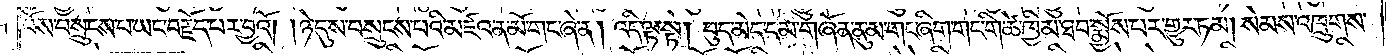པོས་བསྲུངས་པ་ཡང་བརྗོད་པར་བྱའོ། །ཉེ་དུས་བསྲུངས་པའི་མཛའ་ན་མོ་གང་ཞེ་ན། འདི་ལྟ་སྟེ། བུད་མེད་དམ་གཞོན་ནུ་མ་གང་ཞིག་གང་གི་ཚེ་ཁྱིམ་ཐབ་སྨྱོས་པར་གྱུར་ཏམ། སེམས་འཁྲུགས་
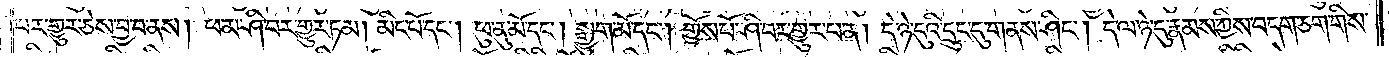པར་གྱུར་ཅེས་བྱ་བ་ནས། ཕ་མ་ཤི་བར་གྱུར་ཏམ། མིང་པོ་དང༌། ཕུ་ནུ་མོ་དང༌། སྒྱུག་མོ་དང༌། གྱོས་པོ་ཤི་བར་གྱུར་པ་ན། དེ་ཉེ་དུའི་དྲུང་དུ་གནས་ཤིང༌། དེ་ལ་ཉེ་དུ་རྣམས་ཀྱིས་བདག་ཅག་གིས་
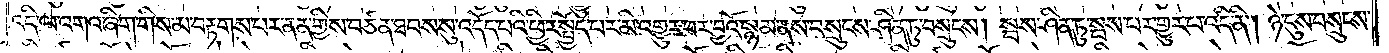འདི་ལ་འགའ་ཞིག་གིས་མ་བརྟགས་པར་ནན་གྱིས་བཙན་ཐབས་སུ་འདོད་པའི་ཕྱིར་སྤྱོད་པར་མི་འགྱུར་བར་བྱའོ་སྙམ་ནས་བསྲུངས་ཤིན་ཏུ་བསྲུངས། སྦས་ཤིན་ཏུ་སྦས་པར་གྱུར་པ་འདི་ནི། ཉེ་དུས་བསྲུངས་
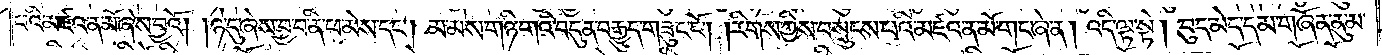པའི་མཛའ་ན་མོ་ཞེས་བྱའོ། །ཉེ་དུ་ཞེས་བྱ་བ་ནི་ཕ་མེས་དང༌། མ་མེས་གཉི་གའི་བདུན་བརྒྱུད་གཟུང་ངོ༌། །རིགས་ཀྱིས་བསྲུངས་པའི་མཛའ་ན་མོ་གང་ཞེ་ན། འདི་ལྟ་སྟེ། བུད་མེད་དམ་གཞོན་ནུ་མ་
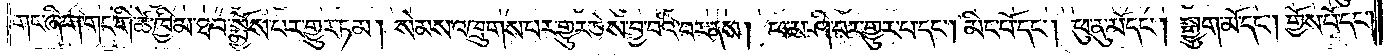གང་ཞིག་གང་གི་ཚེ་ཁྱིམ་ཐབ་སྨྱོས་པར་གྱུར་ཏམ། སེམས་འཁྲུགས་པར་གྱུར་ཅེས་བྱ་བའི་བར་ནས། ཕ་མ་ཤི་བར་གྱུར་པ་དང༌། མིང་པོ་དང༌། ཕུ་ནུ་མོ་དང༌། སྒྱུག་མོ་དང༌། གྱོས་པོ་དང༌།
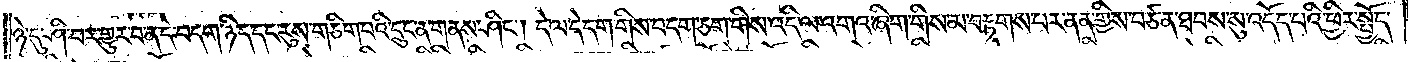ཉེ་དུ་ཤི་བར་གྱུར་བ་ན་དེ་བདག་ཉིད་དང་རུས་གཅིག་པའི་དྲུང་ན་གནས་ཤིང༌། དེ་ལ་དེ་དག་གིས་བདག་ཅག་གིས་འདི་ལ་འགའ་ཞིག་གིས་མ་བརྟགས་པར་ནན་གྱིས་བཙན་ཐབས་སུ་འདོད་པའི་ཕྱིར་སྤྱོད་
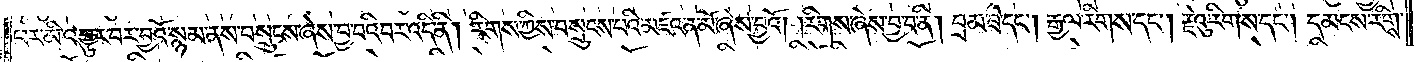པར་མི་འགྱུར་བར་བྱའོ་སྙམ་ནས་བསྲུངས་ཞེས་བྱ་བའི་བར་འདི་ནི། རིགས་ཀྱིས་བསྲུངས་པའི་མཛའ་ན་མོ་ཞེས་བྱའོ། །རིགས་ཞེས་བྱ་བ་ནི། བྲམ་ཟེ་དང༌། རྒྱལ་རིགས་དང༌། རྗེའུ་རིགས་དང༌། དམངས་རིགས་
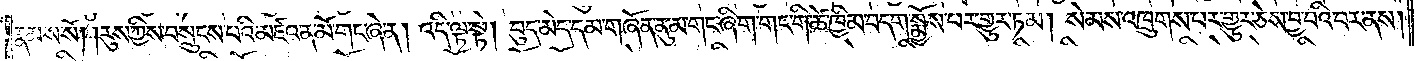རྣམས་སོ། །རུས་ཀྱིས་བསྲུངས་པའི་མཛའ་ན་མོ་གང་ཞེ་ན། འདི་ལྟ་སྟེ། བུད་མེད་དམ་གཞོན་ནུ་མ་གང་ཞིག་གང་གི་ཚེ་ཁྱིམ་བདག་སྨྱོས་པར་གྱུར་ཏམ། སེམས་འཁྲུགས་པར་གྱུར་ཅེས་བྱ་བའི་བར་ནས།
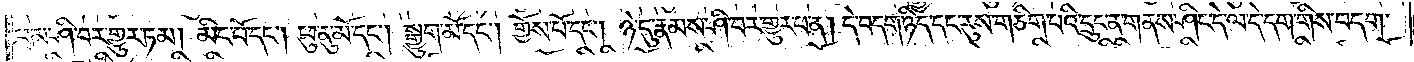ཕ་མ་ཤི་བར་གྱུར་ཏམ། མིང་པོ་དང༌། ཕུ་ནུ་མོ་དང༌། སྒྱུག་མོ་དང༌། གྱོས་པོ་དང༌། ཉེ་དུ་རྣམས་ཤི་བར་གྱུར་པ་ན། དེ་བདག་ཉིད་དང་རུས་གཅིག་པའི་དྲུང་ན་གནས་ཤིང་དེ་ལ་དེ་དག་གིས་བདག་
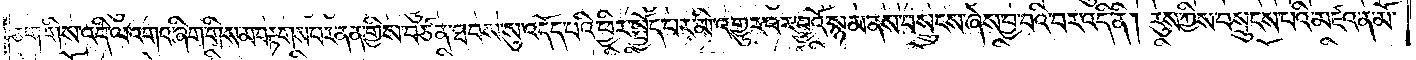ཅག་གིས་འདི་ལ་འགའ་ཞིག་གིས་མ་བརྟགས་པར་ནན་གྱིས་བཙན་ཐབས་སུ་འདོད་པའི་ཕྱིར་སྤྱོད་པར་མི་འགྱུར་བར་བྱའོ་སྙམ་ནས་བསྲུངས་ཞེས་བྱ་བའི་བར་འདི་ནི། རུས་ཀྱིས་བསྲུངས་པའི་མཛའ་ན་མོ་
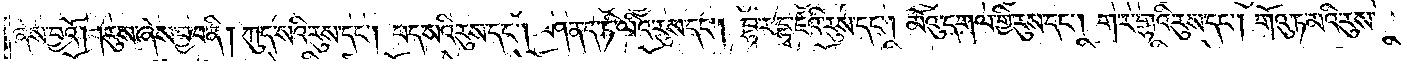ཞེས་བྱའོ། །རུས་ཞེས་བྱ་བ་ནི། ཀུད་སའི་རུས་དང༌། པད་སའི་རུས་དང༌། ཤན་ད་ཏི་ལའི་རུས་དང༌། བྷ་ར་དྷྭ་ཛའི་རུས་དང༌། མོའུ་དགལ་གྱི་རུས་དང༌། ག་ར་གྷའི་རུས་དང༌། གོའུ་ཏ་མའི་རུས་
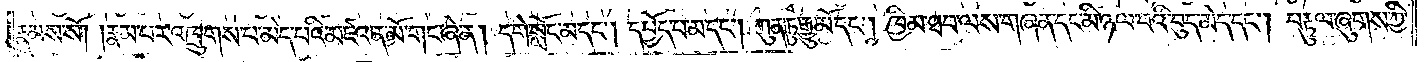རྣམས་སོ། །རྣམ་པར་འཁྲུགས་པ་མེད་པའི་མཛའ་ན་མོ་གང་ཞེ་ན། དགེ་སློང་མ་དང༌། དཔྱོད་པ་མ་དང༌། ཀུན་ཏུ་རྒྱུ་མོ་དང༌། ཁྱིམ་ཐབ་ལས་གཞན་དང་མི་ཉལ་བའི་བུད་མེད་དང༌། བརྟུལ་ཞུགས་ཀྱི་
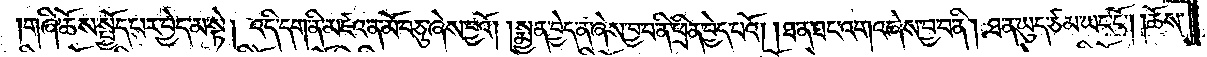གཞི་ཆོས་སྤྱོད་པར་བྱེད་མ་སྟེ། འདི་དག་ནི་མཛའ་ན་མོ་བཅུ་ཞེས་བྱའོ། །སྨྱན་བྱེད་ན་ཞེས་བྱ་བ་ནི་ཕྲིན་བྱེད་པའོ། །ཐ་ན་ཐང་འགའ་ཞེས་བྱ་བ་ནི། ཐ་ན་ཡུད་ཙམ་ཡང་ངོ༌། །ཆོས་
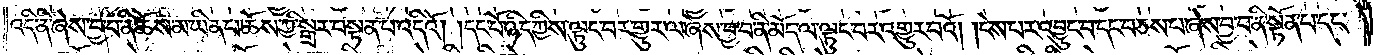འདི་ནི་ཞེས་བྱ་བ་ནི་ཆོས་མ་ཡིན་པ་ཆོས་ཀྱི་སྒྲར་བསྟན་པ་འདིའོ། །དང་པོ་ཉིད་ཀྱིས་ལྟུང་བར་གྱུར་ལ་ཞེས་བྱ་བ་ནི་མོད་ལ་ལྟུང་བར་འགྱུར་བའོ། །ངེས་པར་འབྱུང་བ་དང་བཅས་པ་ཞེས་བྱ་བ་ནི་སྟོན་པ་དང་
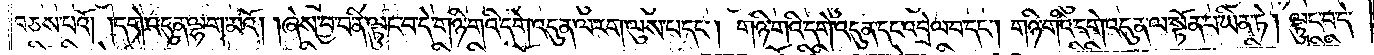བཅས་པའོ། །དགེ་འདུན་ལྷག་མའོ། །ཞེས་བྱ་བ་ནི་ལྟུང་བ་དེ་གཉི་གའི་དགེ་འདུན་ལ་རག་ལུས་པ་དང༌། གཉི་གའི་དགེ་འདུན་དང་འབྲེལ་བ་དང༌། གཉི་གའི་དགེ་འདུན་ལ་སྟོན་པ་ཡིན་ཏེ། ལྟུང་བ་དེ་
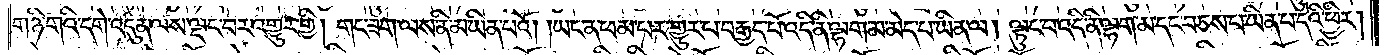གཉི་གའི་དགེ་འདུན་ལས་ལྡང་བར་འགྱུར་གྱི། གང་ཟག་ལས་ནི་མ་ཡིན་པའོ། །ཡང་ན་ཕམ་པར་གྱུར་པ་བརྒྱད་པོ་འདི་ནི་ལྷག་མ་མེད་པ་ཡིན་ལ། ལྟུང་བ་འདི་ནི་ལྷག་མ་དང་བཅས་པ་ཡིན་པ་དེའི་ཕྱིར།
